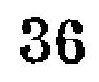36
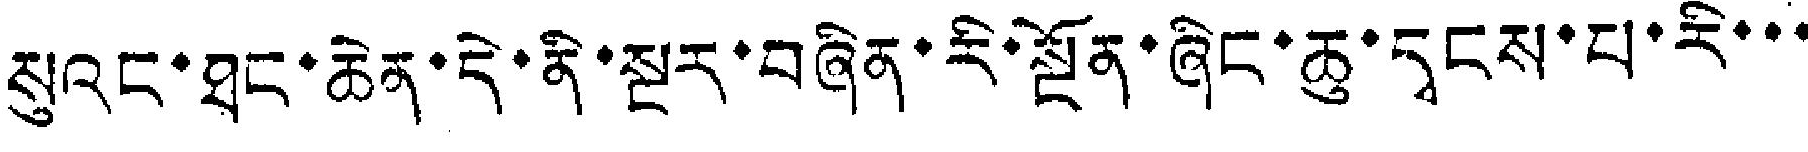སུའང་ཐང་ཆེན་དེ་ནི་སྔར་བཞིན་རི་སྔོན་ཞིང་ཆུ་དྭངས་པ་རི་་་
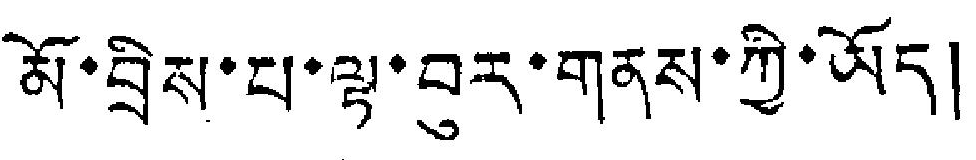མོ་བྲིས་པ་ལྟ་བུར་གནས་ཀྱི་ཡོད།
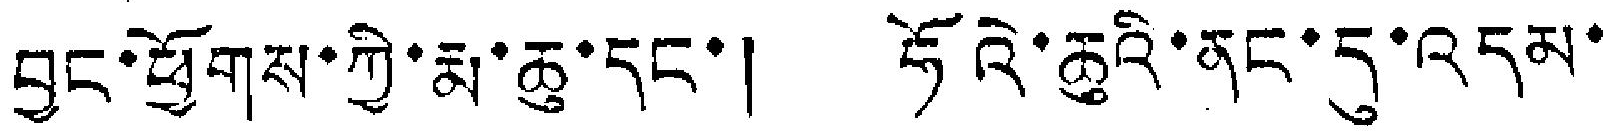བྱང་ཕྱོགས་ཀྱི་རྨ་ཆུ་དང་། ཧོའེ་ཆུའི་ནང་དུ་འདམ་
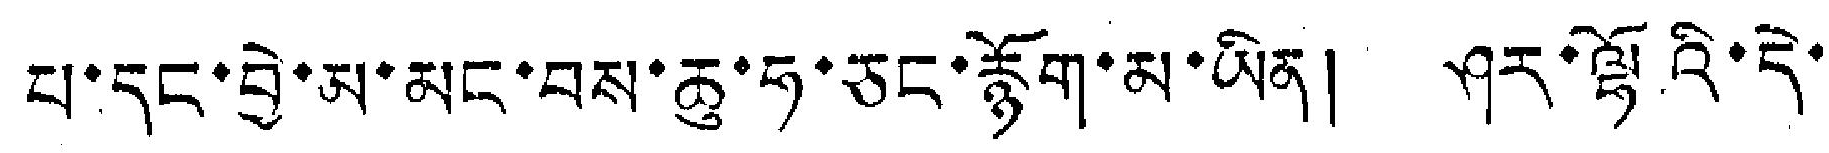པ་དང་བྱེ་མ་མང་བས་ཆུ་ཧ་ཅང་རྙོག་མ་ཡིན། ཤར་ལྷོའི་དེ་
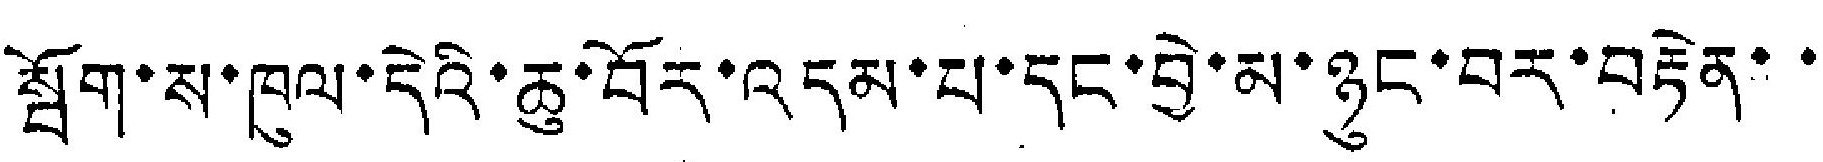སྦོག་ས་ཁུལ་དེའི་ཆུ་བོར་འདམ་པ་དང་བྱེ་མ་ཉུང་བར་བརྟན་་
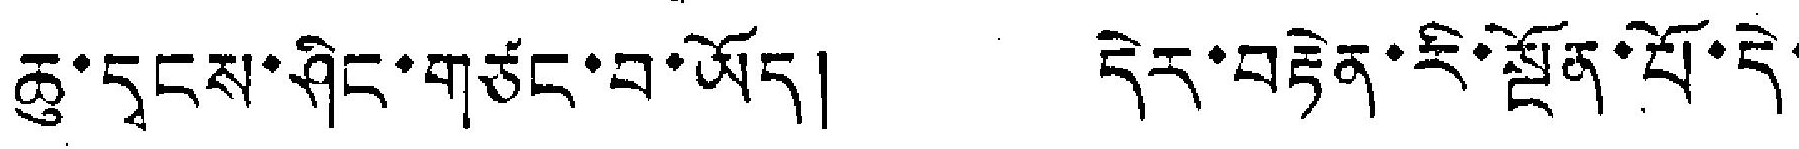ཆུ་དྭངས་ཤིང་གཙང་བ་ཡོད། དེར་བརྟེན་རི་སྔོན་པོ་དེ་
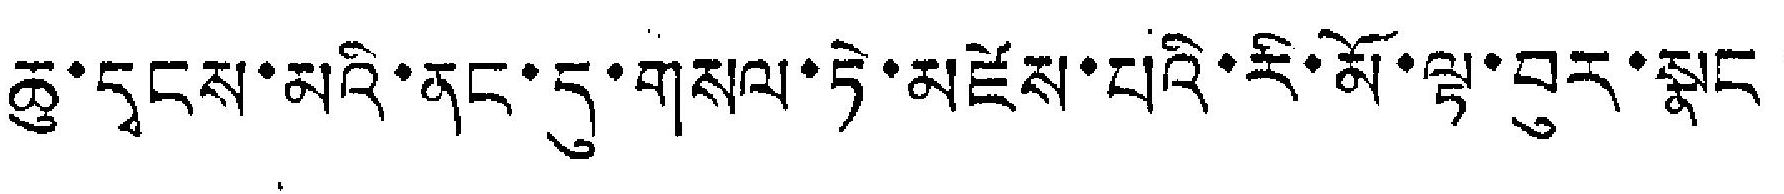ཆུ་དྭངས་མའི་ནང་དུ་གསལ་ཏེ་མཛེས་པའི་རི་མོ་ལྟ་བུར་སྣང་
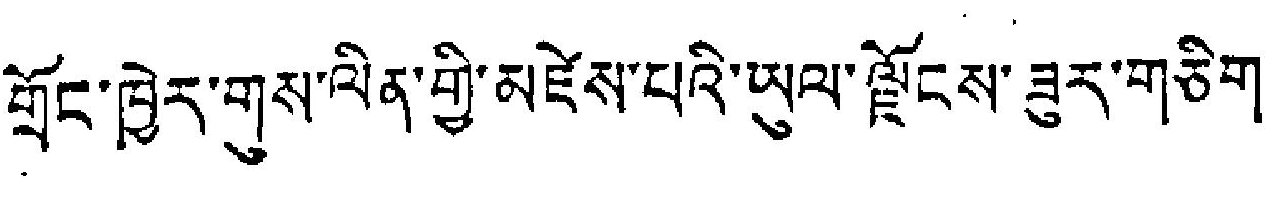གྲོང་ཁྱེར་གུས་ལིན་གྱི་མཛེས་པའི་ཡུལ་ལྗོངས་ཟུར་གཅིག་
